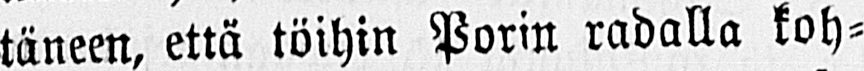täneen, että töihin Porin radalla koh-
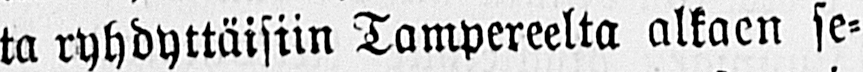ta ryhdyttäisiin Tampereelta alkaen se-
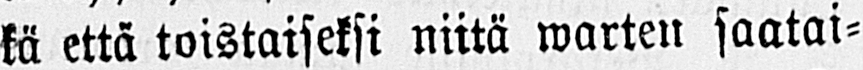kä että toistaiseksi niitä warten saatai-
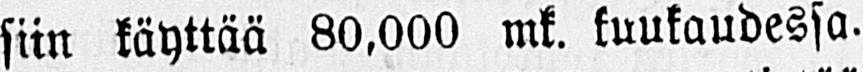siin käyttää 80,000 mk. kuukaudessa.
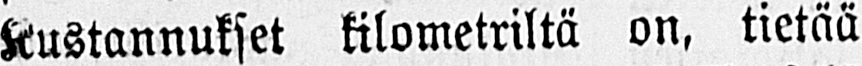Kustannukset kilometriltä on, tietää
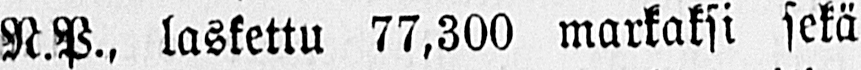N.P., laskettu 77,300 markaksi sekä
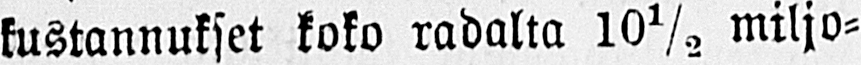kustannukset koko radalta 10½ miljoo-
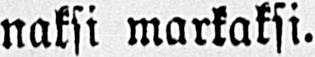naksi markaksi.
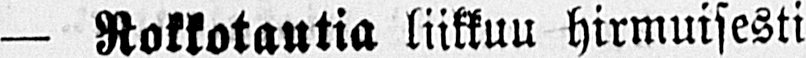— Rokkotautia liikkuu hirmuisesti
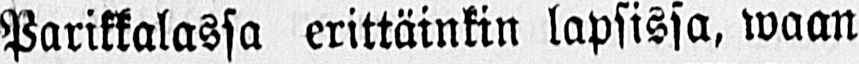Parikkalassa erittäinkin lapsissa, waan
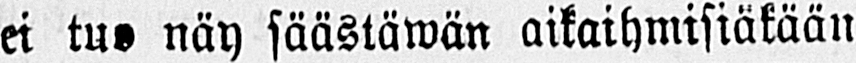ei tuo näy säästäwän aikaihmisiäkään
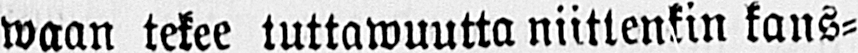waan tekee tuttawuutta niittenkin kans-
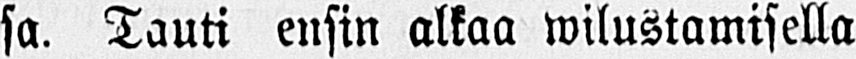sa. Tauti ensin alkaa wilustamisella
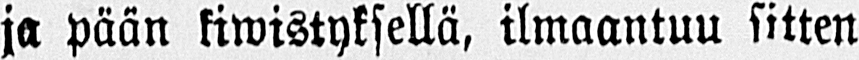ja pään kiwistyksellä, ilmaantuu sitten
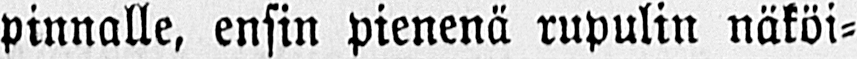pinnalle, ensin pienenä rupulin näköi-
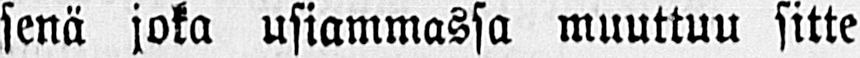senä joka usiammassa muuttuu sitte
